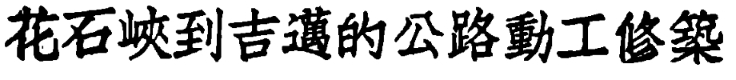代表們發言中，一致贊同劉光實同志
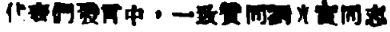作的工作報告，祝賀縣人民委員會的成
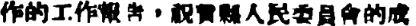立。與會代表一致認爲：久治地區藏族
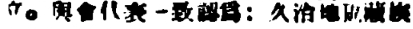人民在共產黨和毛主席民族平等團結政
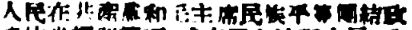策的光輝照耀下，成立了久治縣人民委
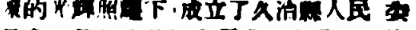員會，是久治藏族人民進一步發揮在管
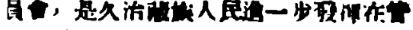理本民族內部事務上當家作主積極性的
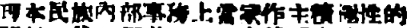開始。代表們並表示，今後要在共產黨
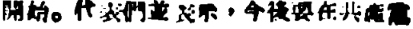和上級人民政府領導下，繼續鞏固和健
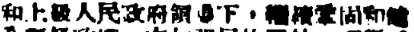全縣級政權，在加強民族團結，不斷穩
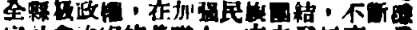定社會治安的基礎上，大力發展畜牧業
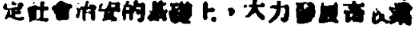生產。
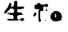花石峽到吉邁的公路動工修築
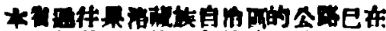本省通往果洛藏族自治區的公路已在
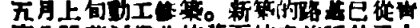五月上旬動工修築。新築的路基已從靑
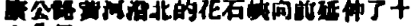康公路黃河沿北的花石峽向前延伸了十
